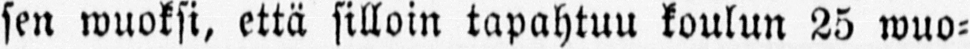sen wuoksi, että silloin tapahtuu koulun 25 wuo-
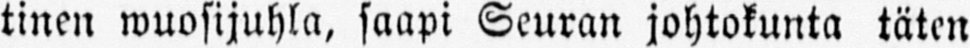tinen wuosijuhla, saapi Seuran johtokunta täten
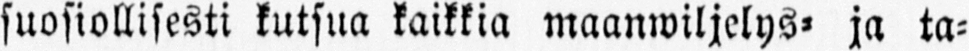suosiollisesti kutsua kaikkia maanwiljelys- ja ta-
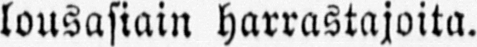lousasiain harrastajoita.
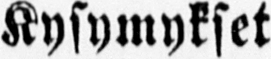Kysymykset
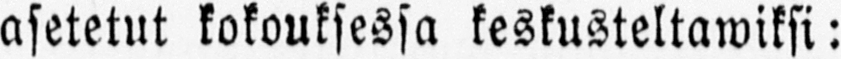asetetut kokouksessa keskusteltawiksi:
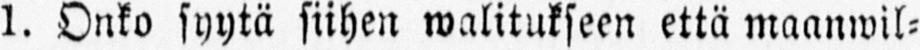1. Onko syytä siihen walitukseen että maanwil-
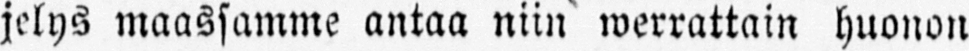jelys maassamme antaa niin werrattain huonon
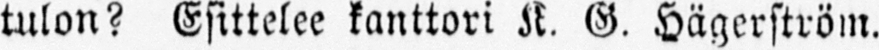tulon? Esittelee kanttori K. G. Hägerström.
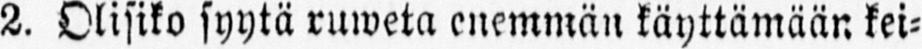2. Olisiko syytä ruweta enemmän käyttämään kei-
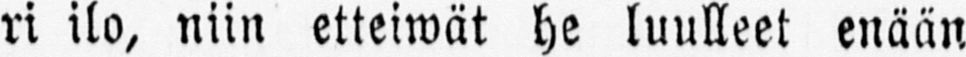ri ilo, niin etteiwät he luulleet enään
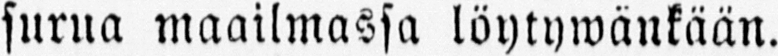surua maailmassa löytywänkään.
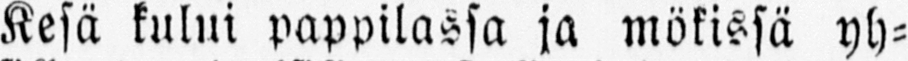Kesä kului pappilassa ja mökissä yh-
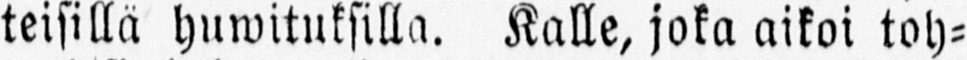teisillä huwituksilla. Kalle, joka aikoi toh-
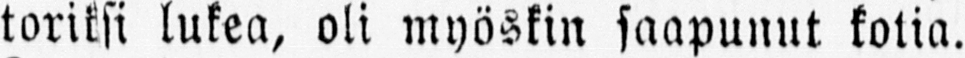toriksi lukea, oli myöskin saapunut kotia.
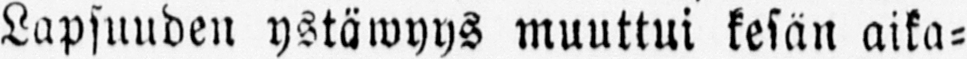Lapsuuden ystäwyys muuttui kesän aika-
